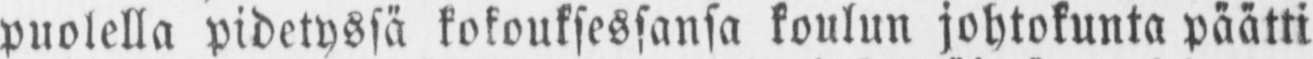puolella pidetyssä kokouksessansa koulun johtokunta päätti
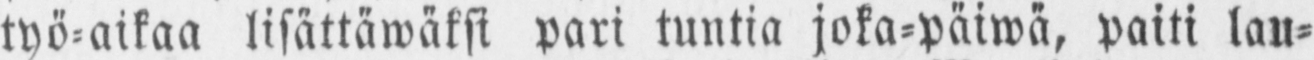työ-aikaa lisättäwäksi pari tuntia joka-päiwä, paiti lau-
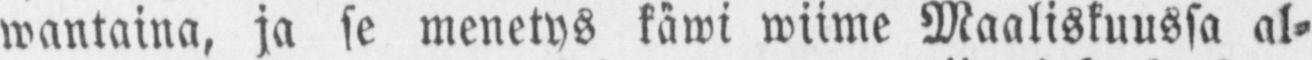wantaina, ja se menetys käwi wiime Maaliskuussa al-
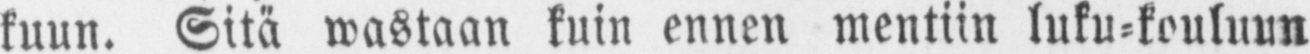kuun. Sitä wastaan kuin ennen mentiin luku-kouluun
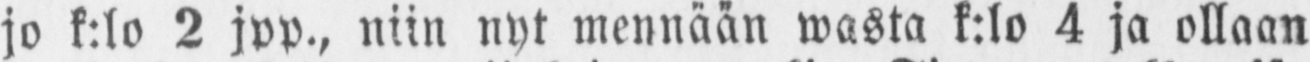jo k:lo 2 jpp., niin nyt mennään wasta k:lo 4 ja ollaan
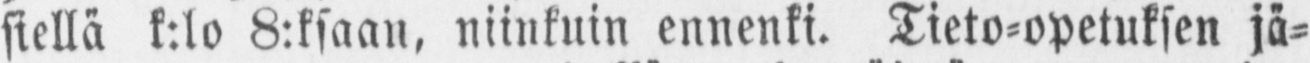siellä k:1o 8:ksaan, niinkuin ennenki. Tieto-opetuksen jä-
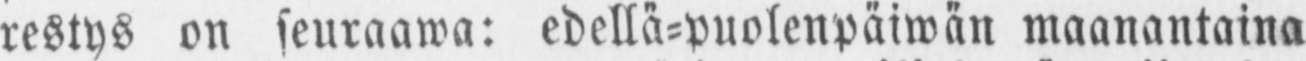restys on seuraawa: edellä-puolenpäiwän maanantaina
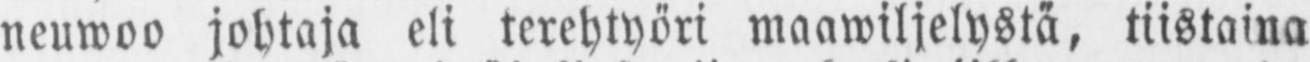neuwoo johtaja eli terehtyöri maawiljelystä, tiistaina
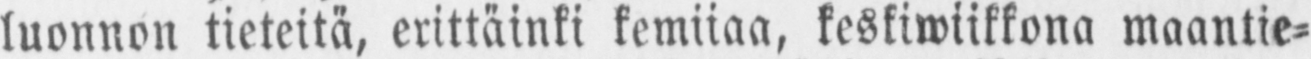luonnon tieteitä, erittäinki kemiiaa, keskiwiikkona maantie-
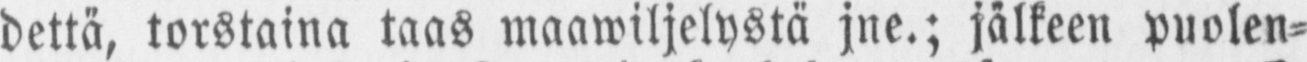dettä, torstaina taas maawiljelystä jne.; jälkeen puolen-
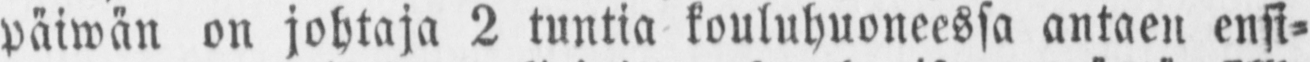päiwän on johtaja 2 tuntia kouluhuoneessa antaen ensi-
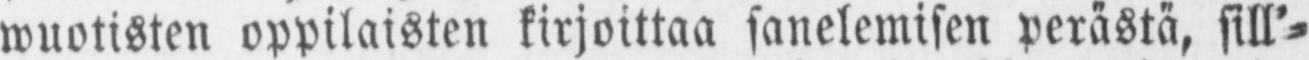wuotisten oppilaisten kirjoittaa sanelemisen perästä, sill'-
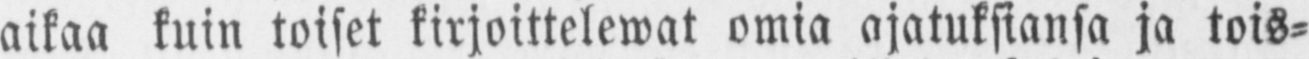aikaa kuin toiset kirjoittelewat omia ajatuksiansa ja tois-
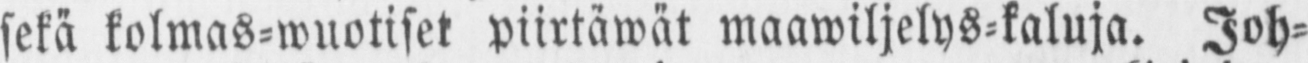sekä kolmas-wuotiset piirtäwät maawiljelys-kaluja. Joh-
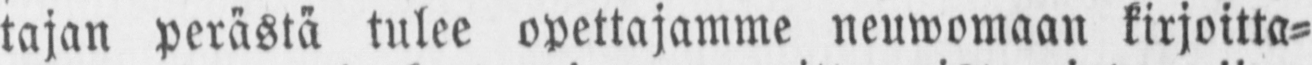tajan perästä tulee ovettajamme neuwomaan kirjoitta-
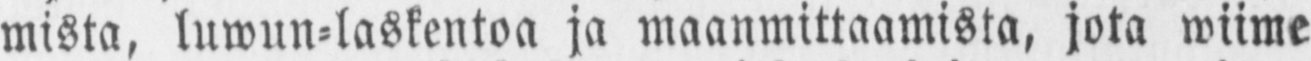mista, luwun-laskentoa ja maanmittaamista, jota wiime
